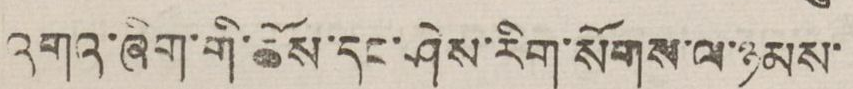འགའ་ཞིག་གི་ཆོས་དང་ཤེས་རིག་སོགས་ལ་ཉམས་
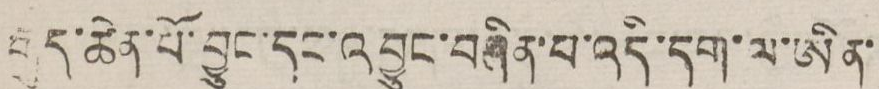རྒུད་ཆེན་པོ་བྱུང་དང་འབྱུང་བཞིན་པ་འདི་དག་ལ་ཨིན་
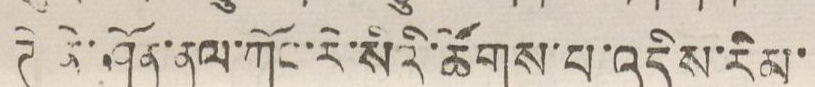ཊེ་ནེ་ཤོན་ནལ་ཀོང་རེ་སིའི་ཚོགས་པ་འདིས་རིམ་
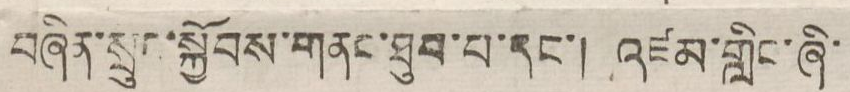བཞིན་སྲུང་སྐྱོབས་གནང་ཐུབ་པ་དང་། འཛམ་གླིང་ཞི་
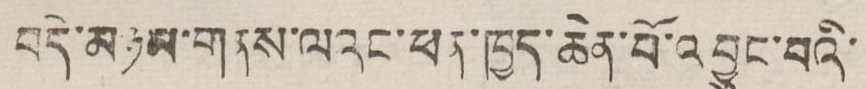བདེ་མཉམ་གནས་ལའང་ཕན་ཁྱད་ཆེན་པོ་འབྱུང་བའི་
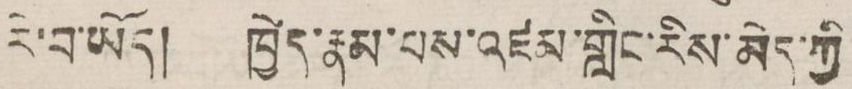རེ་བ་ཡོད། ཁྱེད་རྣམ་པས་འཛམ་གླིང་རིས་མེད་ཀྱི
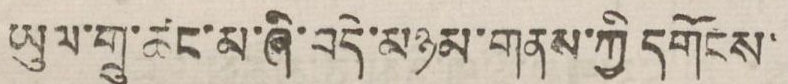ཡུལ་གྲུ་ཚང་མ་ཞི་བདེ་མཉམ་གནས་ཀྱི དགོངས་
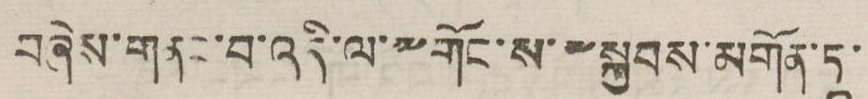བཞེས་གནང་བ་འདི་ལ་༸གོང་ས་༸སྐྱབས་མགོན་ཏཱ་
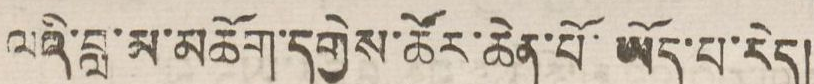ལའི་བླ་མ་མཆོག་དགྱེས་ཚོར་ཆེན་པོ་ཡོད་པ་རེད།
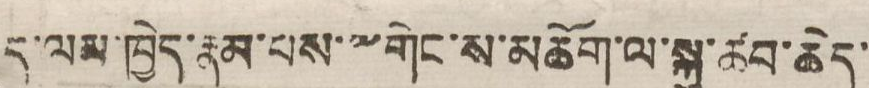ད་ལམ་ཁྱེད་རྣམ་པས་༸གོང་ས་མཆོག་ལ་སྐུ་ཚབ་ཆེད་
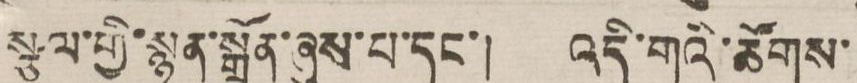སྩལ་གྱི་སྙན་སྒྲོན་ཞུས་པ་དང་། འདི་གའི་ཚོགས་
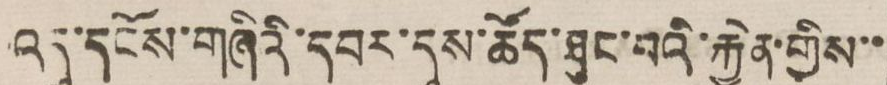འདུ་དངོས་གཞིའི་དབར་དུས་ཚོད་ཐུང་བའི་རྐྱེན་གྱིས་་
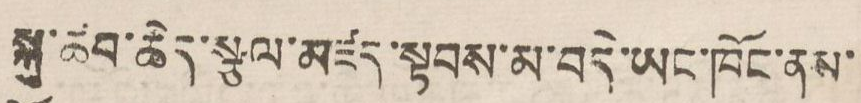སྐུ་ཚབ་ཆེད་སྩལ་མཛད་སྟབས་མ་བདེ་ཡང་ཁོང་ནས་
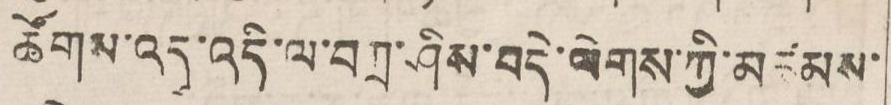ཚོགས་འདུ་འདི་ལ་བཀྲ་ཤིས་བདེ་ལེགས་ཀྱི་མཚམས་
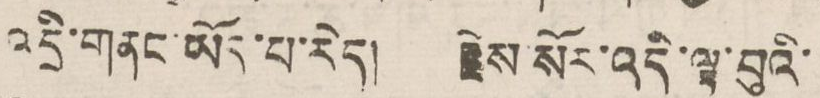འདྲི་གནང་ཡོད་པ་རེད། རྗེས་སོར་འདི་ལྟ་བུའི་
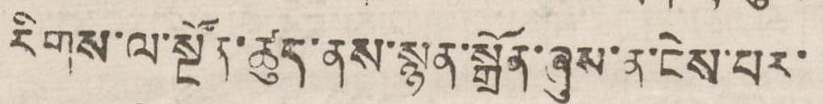རིགས་ལ་སྔོན་ཚུད་ནས་སྙན་སྒྲོན་ཞུས་ན་ངེས་པར་
